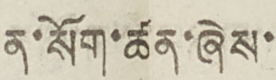ན་སོག་ཚན་ཞེས་
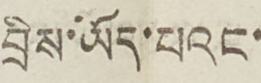བྲིས་ཡོད་པའང་
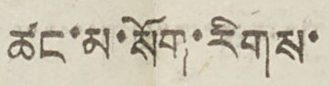ཚང་མ་སོག་རིགས་
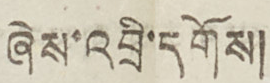ཞེས་འབྲི་དགོས།
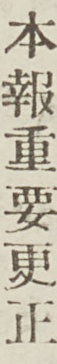本報重要更正
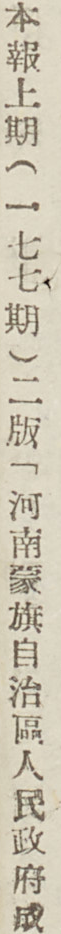本報上期（一七七期）二版「河南蒙旗自治區人民政府成
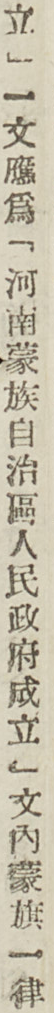立」一文應爲「河南蒙族自治區人民政府成立」文內蒙旗一律
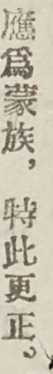應爲蒙族，特此更正。
